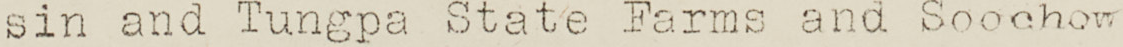sin and Tungpa State Farms and Soochow
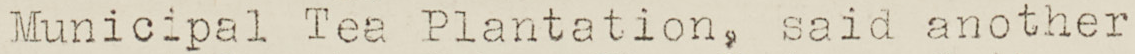Municipal Tea Plantation, said another
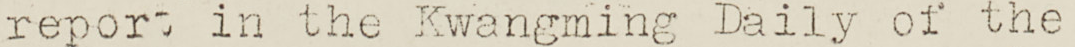report in the Kwangming Daily of the
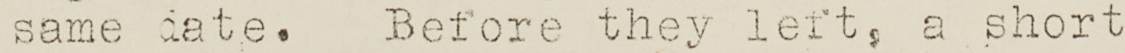same date. Before they left, a short
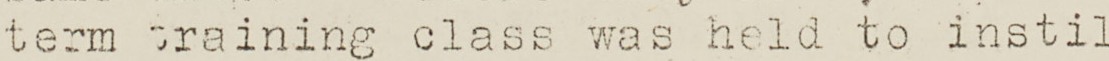term training class was held to instil
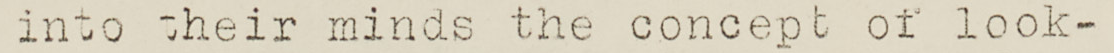into their minds the concept of look-
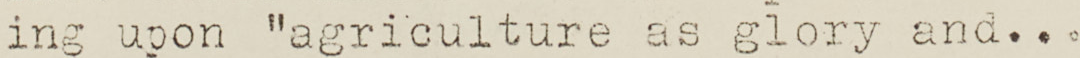ing upon "agriculture as glory and...
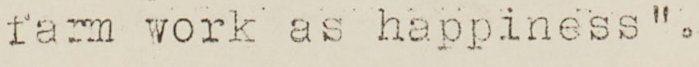farm work as happiness".
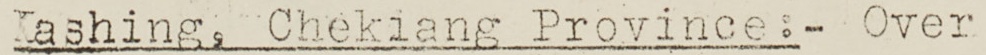Xashing, Chekiang Province:- over
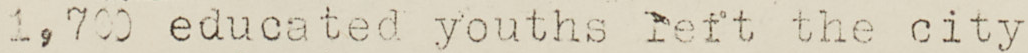1,700 educated youths left the city
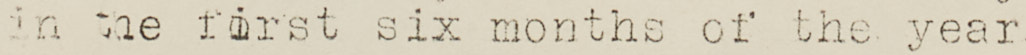in the first six months of the year
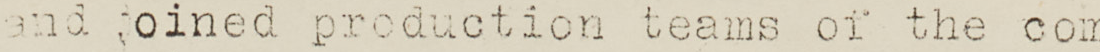and joined production teams of the com
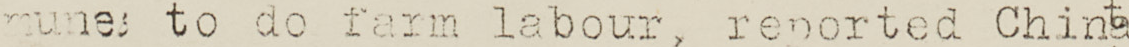munes to do farm labour, reported China
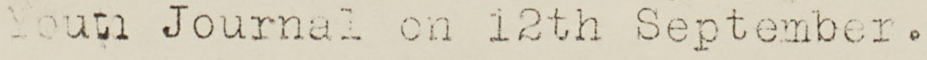Youth Journal on 12th September.
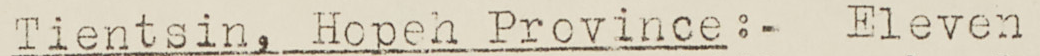Tientsin, Hopeh Province:- Eleven
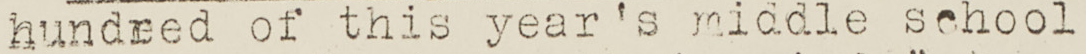hundred of this year's middle school
